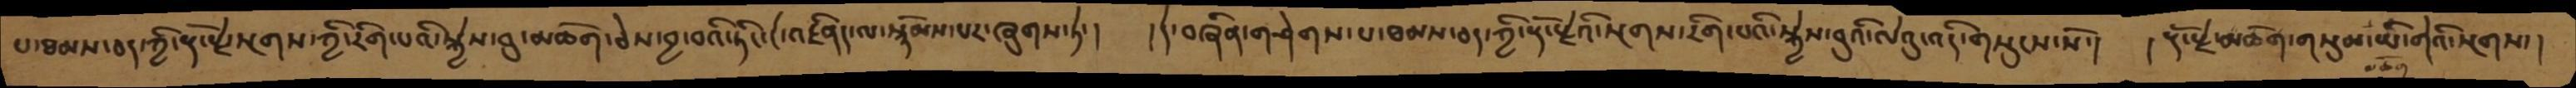པ་ཐམས་ཅད་ཀྱི་རྡོ་རྗེ་སྔགས་ཀྱི་རིག་པའི་སྐྱེས་བུ་མཆོག་ཅེས་བྱ་བའི་ཏིང་ངེ་འཛིནད་ལ་སྙོམས་པར་ཞུགས་ཏེ་།  །དེ་བཞིན་གཤེགས་པ་ཐམས་ཅད་ཀྱི་རྡོ་རྗེའི་སྔགས་རིག་པའི་སྐྱེས་བུའི་ལེའུ་སའདི་གསུངས་སོ་།   །རྡོ་རྗེ་མཆོག་གསུམ་ཡི་གེའི་སྔགས་།
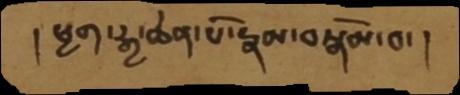། ཕྱག་རྒྱ་ཆེན་པོ་རྣམ་བསྒོམ་བ་།
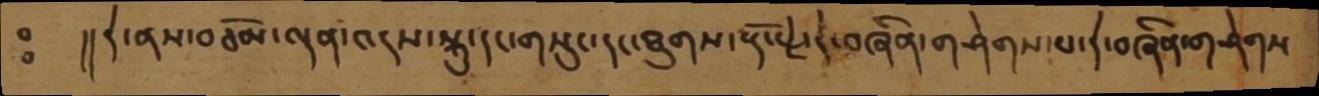ཿ     །།དེ་ནས་བཅོམ་ལྡན་འདས་སྐུ་དང་གསུང་དང་ཐུགས་རྡོ་རྗེ་དེ་བཞིན་གཤེགས་པ་དེ་བཞིན་གཤེགས
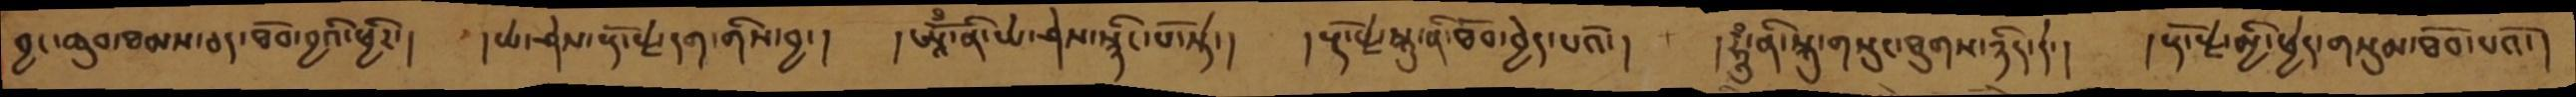བྱང་ཆུབ་ཐམས་ཅད་ཐོབ་བྱའི་ཕྱིར་།  །ཡེ་ཤེས་རྡོ་རྗེ་དག་གིས་བྱ་།  །ཨཱོྃ་ནི་ཡེ་ཤེས་སྙིང་པོ་སྟེ་།   །རྡོ་རྗེ་སྐུ་ནི་ཐོབ་བྱེད་པའོ་།  །ཧཱུྃ་ནི་སྐུ་གསུང་ཐུགས་ཉིད་དེ་།  །རྡོ་རྗེ་མྱི་ཕྱེད་གསུམ་ཐོབ་པའོ་།
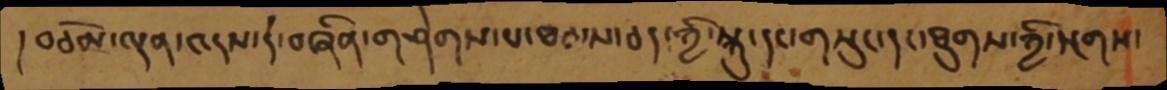།བཅོམ་ལྡན་འདས་དེ་བཞིན་གཤེགས་པ་ཐམས་ཅད་ཀྱི་སྐུ་དང་གསུང་དང་ཐུགས་ཀྱི་སྔགས་
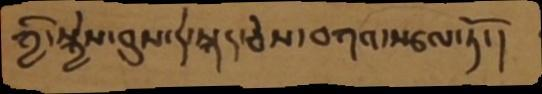གྱི་སྐྱེས་བུས་དེ་སྐད་ཅེས་བཀའ་སྩལ་ཏོ་།
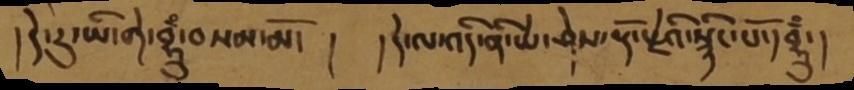།དེ་རུ་ཡི་གེ་བྷྲུྃ་བསམ་མོ་།   །དེ་ལ་འདི་ནི་ཡེ་ཤེས་རྡོ་རྗེའི་སྙིང་པོ་དབྷྲུྃ་།
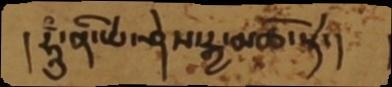།ཧཱུྃ་ནི་ཡེ་ཤེས་རྒྱ་མཚོ་སྟེ་།
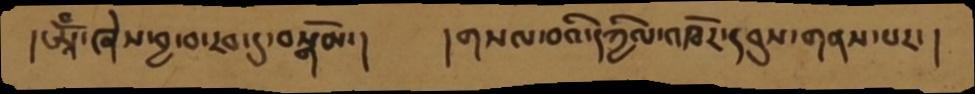།ཨཱོྃ་ཞེས་བྱ་བ་རབ་དུ་བསྒོམ་།   །གསལ་བའི་དཀྱིལ་འཁོར་དབུས་གནས་པར་།
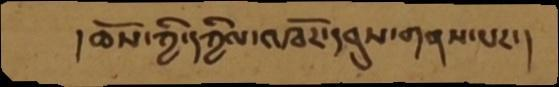།ཆོས་ཀྱི་དཀྱིལ་འཁོར་དབུས་གནས་པར་།
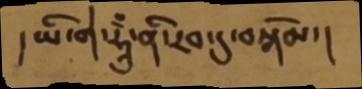།ཡི་གེ་ཧཱུྃ་ནི་རབ་དུ་བསྒོམ་།
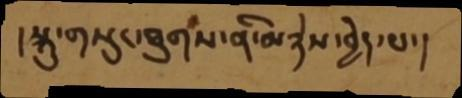།སྐུ་གསུང་ཐུགས་ནི་མཉེས་བྱེད་པ་།
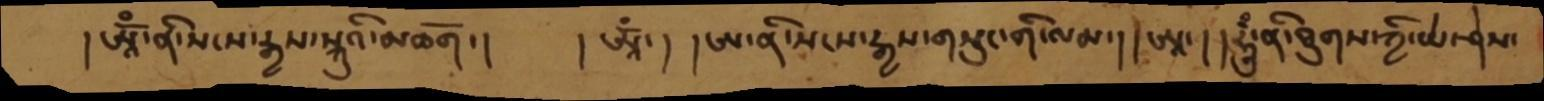།ཨཱོྃ་ནི་སངས་རྒྱས་སྐུའི་མཆོག་།   །ཨཱོྃ་།  །ཨ་ནི་སངས་རྒྱས་གསུང་གི་ལམ་། །ཨཱ། །ཧཱུྃ་ནི་ཐུགས་ཀྱི་ཡེ་ཤེས་
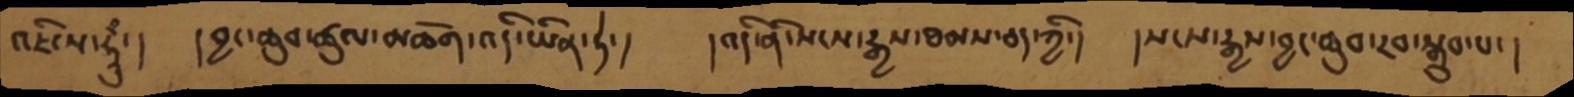འཇིངས་ཧཱུྃ་།  །བྱང་ཆུབ་ཚུལ་མཆོག་འདི་ཡིན་ཏེ་།   །འདི་ནི་སངས་རྒྱས་ཐམས་ཅད་ཀྱི་།  །སངས་རྒྱས་བྱང་ཆུབ་རབ་སྒྲུབ་པ་།
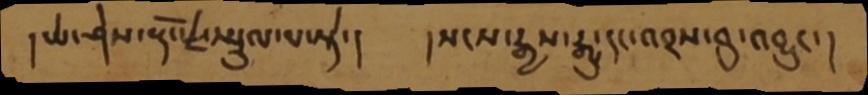།ཡེ་ཤེས་རྡོ་རྗེ་སྤྲུལ་པ་སྟེ་།    །སངས་རྒྱས་རྒྱུ་དང་འབྲས་བུ་འབྱུང་
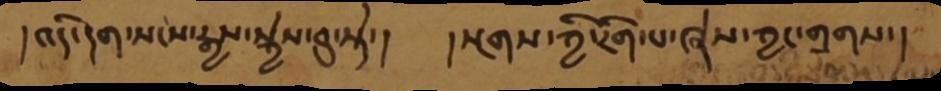།འདི་དག་སངས་རྒྱས་སྐྱེས་བུ་སྟེ་།    །སྔགས་ཀྱི་རིག་པ་ཞེས་ཀྱང་གྲགས་།
